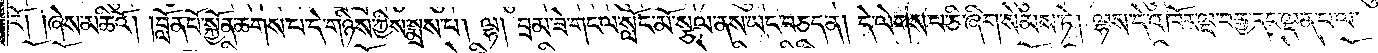རོ། །ཞེས་མཆིའོ། །བློན་པོ་སྐྱོན་ཆགས་པ་དེ་གཉིས་ཀྱིས་སྨྲས་པ། ལྷ། བྲམ་ཟེ་གང་ལ་སློང་མོ་སྩལ་ནས་ཡང་བཅད་ན། དེ་ལེགས་པ་ཅི་ཞིག་སེམས་ཏེ། ལྷས་དེ་འཁོར་ལྔ་བརྒྱ་དང་ལྡན་པ་ལ་
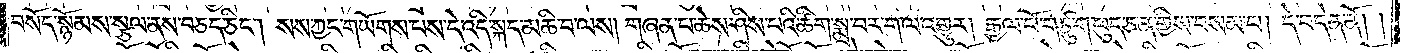བསོད་སྙོམས་སྩལ་ནས་བཅད་ཅིང༌། སས་ཀྱང་གཡོགས་པས་དེ་འདི་སྐད་མཆི་པ་ལས། གཞན་པ་ཆེས་ཤིས་པའི་ཚིག་སྨྲ་བར་ག་ལ་འགྱུར། རྒྱལ་པོ་གཙུག་ཕུད་ཅན་གྱིས་བསམ་པ། དེ་བདེན་ནོ། །
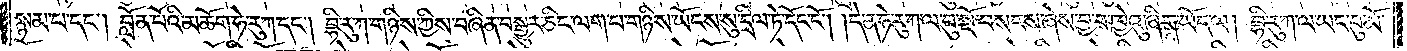སྙམ་པ་དང༌། བློན་པོའི་མཆོག་ཧེ་རུ་ཀ་དང༌། བྷི་རུ་ཀ་གཉིས་ཀྱིས་བཞིན་བསྒྱུར་ཅིང་ལག་པ་གཉིས་ཡོངས་སུ་དྲིལ་ཏེ་དོང་ངོ༌། །དེ་ན་ཧེ་རུ་ཀ་ལ་བུ་སྔོ་བསངས་ཞེས་བྱ་བ་ཁྱེའུ་ཞིག་ཡོད་ལ། བྷི་རུ་ཀ་ལ་ཡང་བུ་མོ་
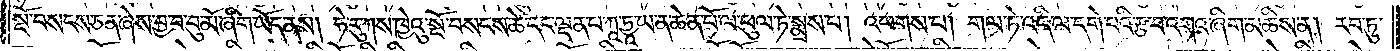སྔོ་བསངས་ཅན་ཞེས་བྱ་བ་བུ་མོ་ཞིག་ཡོད་ནས། ཧེ་རུ་ཀས་ཁྱེའུ་སྔོ་བསངས་ཚེ་དང་ལྡན་པ་ཀཱ་ཏྱཱ་ཡ་ན་ཆེན་པོ་ལ་ཕུལ་ཏེ་སྨྲས་པ། འཕགས་པ། གལ་ཏེ་འདི་ལ་དགེ་བའི་རྩ་བ་འགའ་ཞིག་མཆིས་ན། རབ་ཏུ་
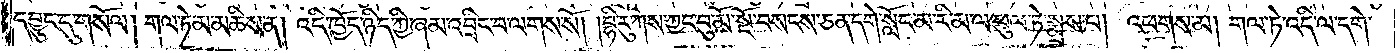དབྱུང་དུ་གསོལ། གལ་ཏེ་མ་མཆིས་ན། འདི་ཁྱོད་ཉིད་ཀྱི་ཞམ་འབྲིང་བ་ལགས་སོ། །བྷི་རུ་ཀས་ཀྱང་བུ་མོ་སྔོ་བསངས་ཅན་དགེ་སློང་མ་རི་མ་ལ་ཕུལ་ཏེ་སྨྲས་པ། འཕགས་མ། གལ་ཏེ་འདི་ལ་དགེ་
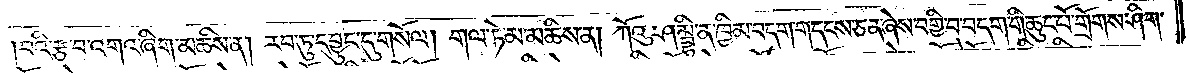།བའི་རྩ་བ་འགའ་ཞིག་མཆིས་ན། རབ་ཏུ་དབྱུང་དུ་གསོལ། གལ་ཏེ་མ་མཆིས་ན། ཀོའུ་ཤམྦྷི་ན་ཁྱིམ་བདག་གདངས་ཅན་ཞེས་བགྱི་བ་བདག་གི་ཆུང་པོ་གྲོགས་ཤིག་
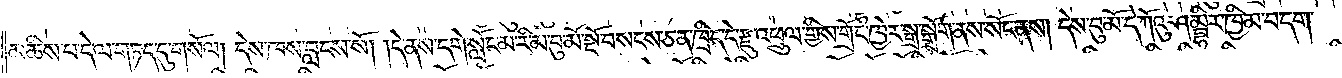མཆིས་པ་དེ་ལ་གཏད་དུ་གསོལ། དེས་ཁས་བླངས་སོ། །དེ་ནས་དགེ་སློང་མ་རི་མ་བུ་མོ་སྔོ་བསངས་ཅན་ཁྲིད་དེ་རྫུ་འཕྲུལ་གྱིས་གྲོང་ཁྱེར་སྒྲ་སྒྲོག་ནས་སོང་ནས། དེས་བུ་མོ་དེ་ཀོའུ་ཤམྦྷིར་ཁྱིམ་བདག་
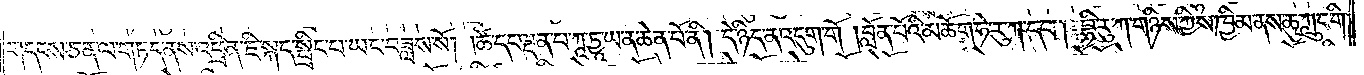གདངས་ཅན་ལ་གཏད་ནས་འཕྲིན་ཇི་སྐད་སྤྲིང་པ་ཡང་བཟླས་སོ། །ཚེ་དང་ལྡན་པ་ཀཱཏྱཱ་ཡ་ན་ཆེན་པོ་ནི། དེ་ཉིད་ན་འདུག་གོ  །བློན་པོའི་མཆོག་ཧེ་རུ་ཀ་དང༌། བྷི་རུ་ཀ་གཉིས་ཀྱིས་ཁྱིམ་ནས་ཆུ་ཀླུང་གི་
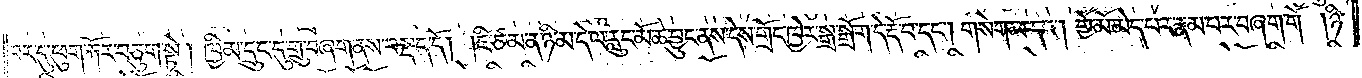བར་དུ་ཕུག་རྐོར་བཅུག་སྟེ། ཁྱིམ་དྲུང་དུ་གྲུ་བཞག་ནས་བསྡད་དོ། །ཇི་ཙམ་ན་ཉི་མ་དེ་ལ་རླུང་མོ་ཆེ་བྱུང་ནས་དེས་གྲོང་ཁྱེར་སྒྲ་སྒྲོག་དེ་རྡོ་བ་དང༌། གསེག་མ་དང༌། གྱོ་མོ་མེད་པར་རྣམ་པར་བཞག་གོ །ཉི་
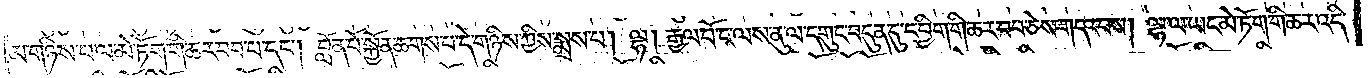མ་གཉིས་པ་ལ་མེ་ཏོག་གི་ཆར་བབ་པ་དང༌། བློན་པོ་སྐྱོན་ཆགས་པ་དེ་གཉིས་ཀྱིས་སྨྲས་པ། ལྷ། རྒྱལ་པོ་ང་ལས་ནུ་ལ་དགུང་བདུན་དུ་དབྱིག་གི་ཆར་བབ་ཅེས་གདའ་བས། ལྷ་ལ་ཡང་མེ་ཏོག་གི་ཆར་འདི་
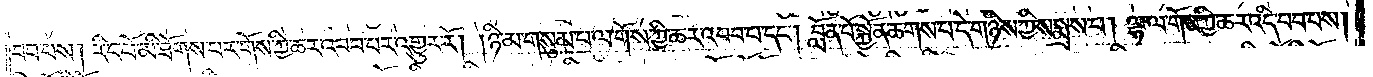བབ་པས། རིང་པོ་མི་ཐོགས་པར་གོས་ཀྱི་ཆར་འབབ་པར་འགྱུར་རོ། །ཉི་མ་གསུམ་པ་ལ་གོས་ཀྱི་ཆར་འབབ་པ་དང༌། བློན་པོ་སྐྱོན་ཆགས་པ་དེ་གཉིས་ཀྱིས་སྨྲས་པ། ལྷ་ལ་གོས་ཀྱི་ཆར་འདི་བབ་པས།
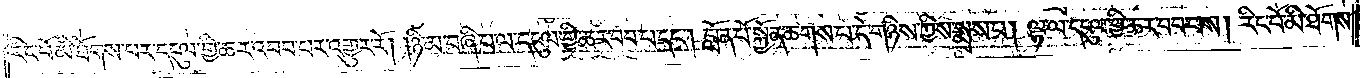རིང་པོ་མི་ཐོགས་པར་དངུལ་གྱི་ཆར་འབབ་པར་འགྱུར་རོ། །ཉི་མ་བཞི་པ་ལ་དངུལ་གྱི་ཆར་བབ་པ་དང༌། བློན་པོ་སྐྱོན་ཆགས་པ་དེ་གཉིས་ཀྱིས་སྨྲས་པ། ལྷ་ལ་དངུལ་གྱི་ཆར་བབ་པས། རིང་པོ་མི་ཐོགས་
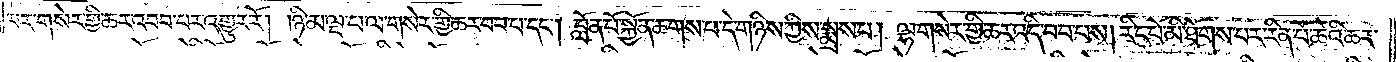པར་གསེར་གྱི་ཆར་འབབ་པར་འགྱུར་རོ། །ཉི་མ་ལྔ་པ་ལ་གསེར་གྱི་ཆར་བབ་པ་དང༌། བློན་པོ་སྐྱོན་ཆགས་པ་དེ་གཉིས་ཀྱིས་སྨྲས་པ། ལྷ་གསེར་གྱི་ཆར་འདི་བབ་པས། རིང་པོ་མི་ཐོགས་པར་རིན་པོ་ཆེའི་ཆར་
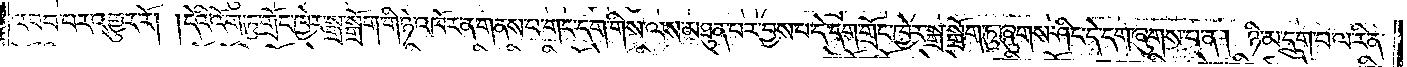འབབ་པར་འགྱུར་རོ། །དེའི་འོག་ཏུ་གྲོང་ཁྱེར་སྒྲ་སྒྲོག་གི་ཉེ་འཁོར་ན་གནས་པ་གང་དག་གིས་ལས་མཐུན་པར་བྱས་པ་དེ་དག་གྲོང་ཁྱེར་སྒྲ་སྒྲོག་ཏུ་ཞུགས་ཤིང་དེ་དག་ཞུགས་པ་ན། ཉི་མ་དྲུག་པ་ལ་རིན་
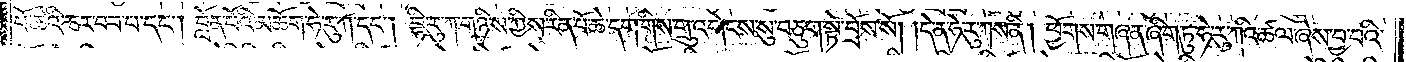པོ་ཆེའི་ཆར་བབ་པ་དང༌། བློན་པོའི་མཆོག་ཧེ་རེ་ཀ་དང༌། བྷི་རུ་ཀ་གཉིས་ཀྱིས་རིན་པོ་ཆེ་དེ་དག་གིས་གྲུ་འགེངས་སུ་བཅུག་སྟེ་བྲོས་སོ། །དེ་ན་ཧེ་རེ་ཀས་ནི། ཕྱོགས་གཞན་ཞིག་ཏུ་ཧེ་རུ་ཀའི་ཚལ་ཞེས་བྱ་བའི་
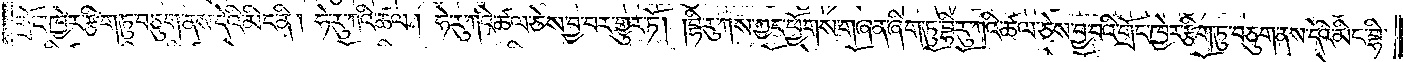གྲོང་ཁྱེར་རྩིག་ཏུ་བཅུག་ནས་དེའི་མིང་ནི། ཧེ་རུ་ཀའི་ཚལ། ཧེ་རུ་ཀའི་ཚལ་ཅེས་བྱ་བར་གྱུར་ཏོ། །བྷི་རུ་ཀས་ཀྱང་ཕྱོགས་གཞན་ཞིག་ཏུ་བྷི་རུ་ཀའི་ཚལ་ཅེས་བྱ་བའི་གྲོང་ཁྱེར་རྩིག་ཏུ་བཅུག་ནས་དེའི་མིང་བྷི་
